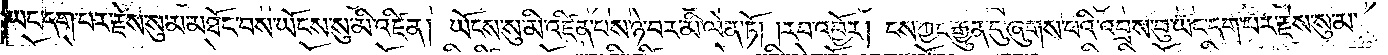ཡང་དག་པར་རྗེས་སུ་མ་མཐོང་བས་ཡོངས་སུ་མི་འཛིན། ཡོངས་སུ་མི་འཛིན་པས་ཉེ་བར་མི་ལེན་ཏོ། །རབ་འབྱོར། ངས་ཀྱང་རྒྱུན་དུ་ཞུགས་པའི་འབྲས་བུ་ཡང་དག་པར་རྗེས་སུ་མ་
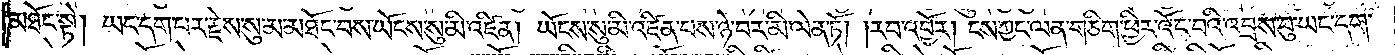མཐོང་སྟེ། ཡང་དག་པར་རྗེས་སུ་མ་མཐོང་བས་ཡོངས་སུ་མི་འཛིན། ཡོངས་སུ་མི་འཛིན་པས་ཉེ་བར་མི་ལེན་ཏོ། །རབ་འབྱོར། ངས་ཀྱང་ལན་གཅིག་ཕྱིར་འོང་བའི་འབྲས་བུ་ཡང་དག་
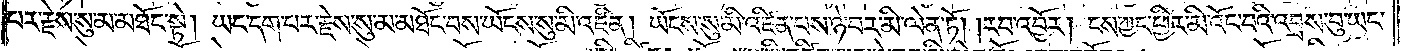པར་རྗེས་སུ་མ་མཐོང་སྟེ། ཡང་དག་པར་རྗེས་སུ་མ་མཐོང་བས་ཡོངས་སུ་མི་འཛིན། ཡོངས་སུ་མི་འཛིན་པས་ཉེ་བར་མི་ལེན་ཏོ། །རབ་འབྱོར། ངས་ཀྱང་ཕྱིར་མི་འོང་བའི་འབྲས་བུ་ཡང་
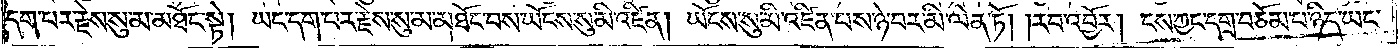དག་པར་རྗེས་སུ་མ་མཐོང་སྟེ། ཡང་དག་པར་རྗེས་སུ་མཐོང་བས་ཡོངས་སུ་མི་འཛིན། ཡོངས་སུ་མི་འཛིན་པས་ཉེ་བར་མི་ལེན་ཏོ། །རབ་འབྱོར། ངས་ཀྱང་དགྲ་བཅོམ་པ་ཉིད་ཡང་
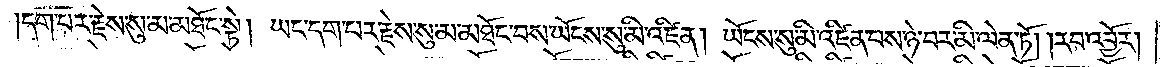དག་པར་རྗེས་སུ་མ་མཐོང་སྟེ། ཡང་དག་པར་རྗེས་སུ་མ་མཐོང་བས་ཡོངས་སུ་མི་འཛིན། ཡོངས་སུ་མི་འཛིན་པས་ཉེ་བར་མི་ལེན་ཏོ། །རབ་འབྱོར།
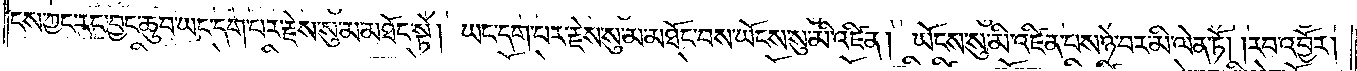ངས་ཀྱང་རང་བྱང་ཆུབ་ཡང་དག་པར་རྗེས་སུ་མ་མཐོང་སྟེ། ཡང་དག་པར་རྗེས་སུ་མ་མཐོང་བས་ཡོངས་སུ་མི་འཛིན། ཡོངས་སུ་མི་འཛིན་པས་ཉེ་བར་མི་ལེན་ཏོ། །རབ་འབྱོར།
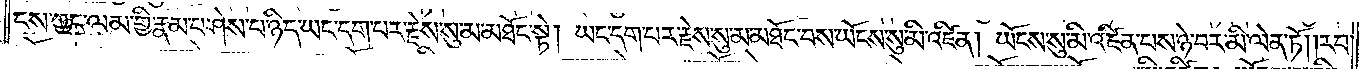ངས་ཀྱང་ལམ་གྱི་རྣམ་པ་ཤེས་པ་ཉིད་ཡང་དག་པར་རྗེས་སུ་མ་མཐོང་སྟེ། ཡང་དག་པར་རྗེས་སུ་མ་མཐོང་བས་ཡོངས་སུ་མི་འཛིན། ཡོངས་སུ་མི་འཛིན་པས་ཉེ་བར་མི་ལེན་ཏོ། །རབ་
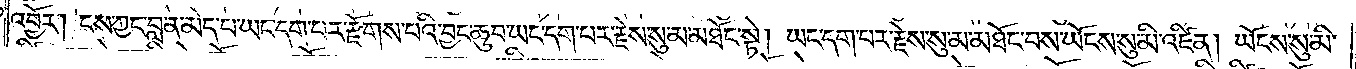འབྱོར། ངས་ཀྱང་བླ་ན་མེད་པ་ཡང་དག་པར་རྫོགས་པའི་བྱང་ཆུབ་ཡང་དག་པར་རྗེས་སུ་མ་མཐོང་སྟེ། ཡང་དག་པར་རྗེས་སུ་མ་མཐོང་བས་ཡོངས་སུ་མི་འཛིན། ཡོངས་སུ་མི་
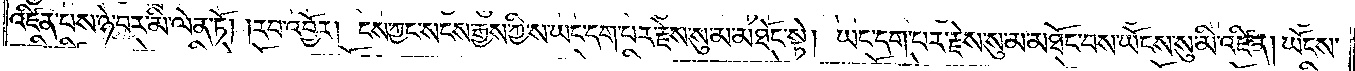འཛིན་པས་ཉེ་བར་མི་ལེན་ཏོ། །རབ་འབྱོར། ངས་ཀྱང་སངས་རྒྱས་ཀྱི་ས་ཡང་དག་པར་རྗེས་སུ་མ་མཐོང་སྟེ། ཡང་དག་པར་རྗེས་སུ་མ་མཐོང་བས་ཡོངས་སུ་མི་འཛིན། ཡོངས་
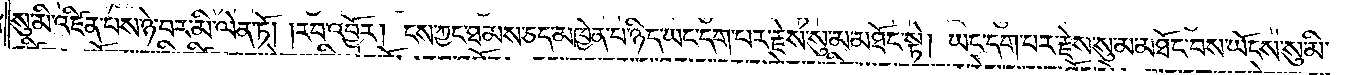སུ་མི་འཛིན་པས་ཉེ་བར་མི་ལེན་ཏོ། །རབ་འབྱོར། ངས་ཀྱང་ཐམས་ཅད་མཁྱེན་པ་ཉིད་ཡང་དག་པར་རྗེས་སུ་མ་མཐོང་སྟེ། ཡང་དག་པར་རྗེས་སུ་མ་མཐོང་བས་ཡོངས་སུ་མི་
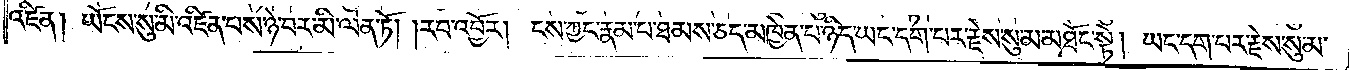འཛིན། ཡོངས་སུ་མི་འཛིན་པས་ཉེ་བར་མི་ལེན་ཏོ། །རབ་འབྱོར། ངས་ཀྱང་རྣམ་པ་ཐམས་ཅད་མཁྱེན་པ་ཉིད་ཡང་དག་པར་རྗེས་སུ་མ་མཐོང་སྟེ། ཡང་དག་པར་རྗེས་སུ་མ་
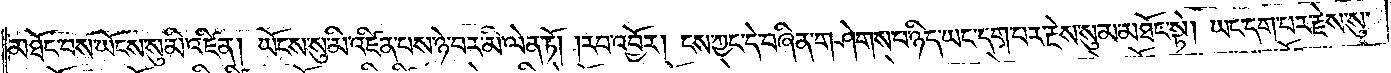མཐོང་བས་ཡོངས་སུ་མི་འཛིན། ཡོངས་སུ་མི་འཛིན་པས་ཉེ་བར་མི་ལེན་ཏོ། །རབ་འབྱོར། ངས་ཀྱང་དེ་བཞིན་གཤེགས་པ་ཉིད་ཡང་དག་པར་རྗེས་སུ་མ་མཐོང་སྟེ། ཡང་དག་པར་རྗེས་སུ་
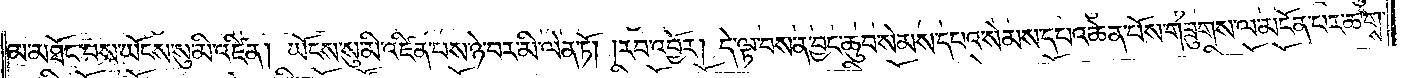མ་མཐོང་བས་ཡོངས་སུ་མི་འཛིན། ཡོངས་སུ་མི་འཛིན་པས་ཉེ་བར་མི་ལེན་ཏོ། །རབ་འབྱོར། དེ་ལྟ་བས་ན་བྱང་ཆུབ་སེམས་དཔའ་སེམས་དཔའ་ཆེན་པོས་གཟུགས་ལ་མངོན་པར་ཆགས་
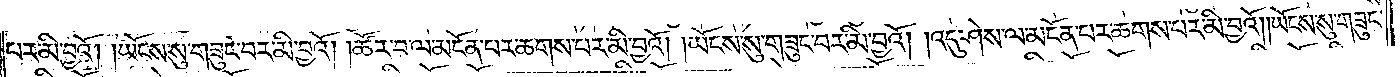པར་མི་བྱའོ། །ཡོངས་སུ་གཟུང་བར་མི་བྱའོ། །ཚོར་བ་ལ་མངོན་པར་ཆགས་པར་མི་བྱའོ། །ཡོངས་སུ་གཟུང་བར་མི་བྱའོ། །འདུ་ཤེས་ལ་མངོན་པར་ཆགས་པར་མི་བྱའོ། །ཡོངས་སུ་གཟུང་
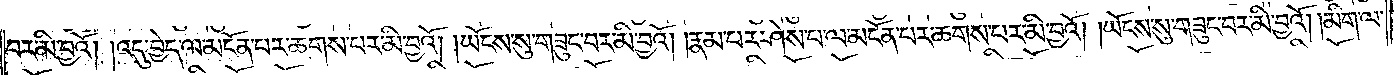བར་མི་བྱའོ། །འདུ་བྱེད་ལ་མངོན་པར་ཆགས་པར་མི་བྱའོ། །ཡོངས་སུ་གཟུང་བར་མི་བྱའོ། །རྣམ་པར་ཤེས་པ་ལ་མངོན་པར་ཆགས་པར་མི་བྱའོ། །ཡོངས་སུ་གཟུང་བར་མི་བྱའོ། །མིག་ལ་
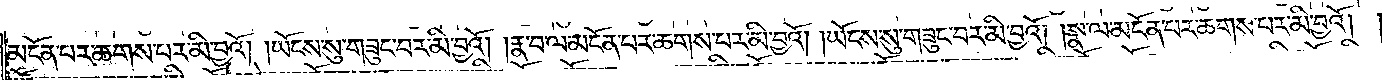མངོན་པར་ཆགས་པར་མི་བྱའོ། །ཡོངས་སུ་གཟུང་བར་མི་བྱའོ། །རྣ་བ་ལ་མངོན་པར་ཆགས་པར་མི་བྱའོ། །ཡོངས་སུ་གཟུང་བར་མི་བྱའོ། །སྣ་ལ་མངོན་པར་ཆགས་པར་མི་བྱའོ། །
